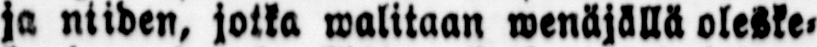ja niiden, jotka waittaan wenäjällä oleske-
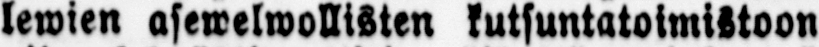lewien asewelwollisten kutsuntatoimistoon
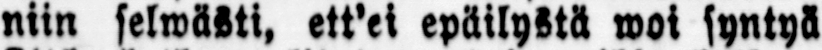niin selwästi, ett'ei epäilystä woi syntyä
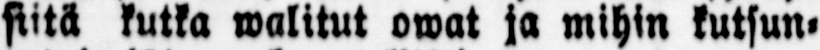siitä kutka walitut owat ja mihin kutsun-
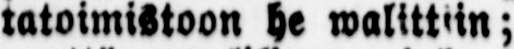tatoimistoon he walttiin;
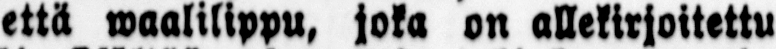että waalilippu, joka on allekirjoitettu
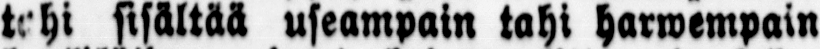tahi sisältää useampain tahi harwempain
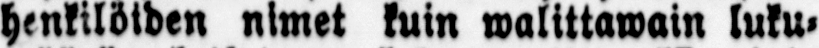henkilöiden nimet kuin walittawain luku-
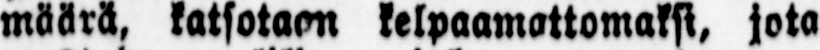määrä, katsotaan kelpaamattomaksi, jota
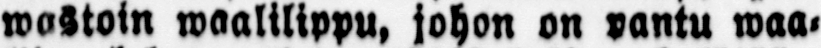wastoin waalilippu, johon on pantu waa-
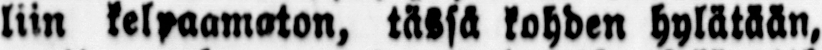liin kelpaamaton, tässä kohden hylätään,
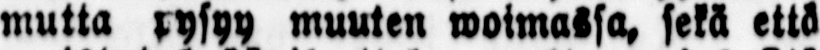mutta pysyy muuten woimassa, sekä että
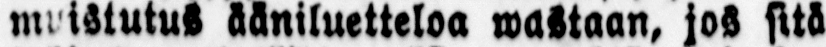muistutus ääniluetteloa wastaan, jos sitä
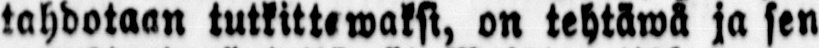tahdotaan tutkittewaksi, on tehtäwä ja sen
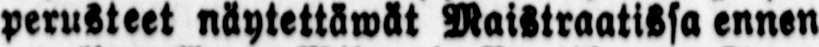perusteet näytettäwät Maistraatissa ennen
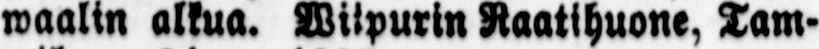waalin alkua. Wiipurin Raatihuone, Tam-
